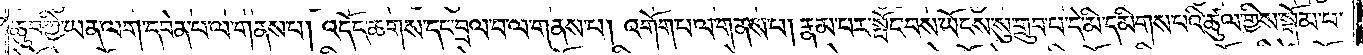ཆུབ་ཀྱི་ཡན་ལག་དབེན་པ་ལ་གནས་པ། འདོད་ཆགས་དང་བྲལ་བ་ལ་གནས་པ། འགོག་པ་ལ་གནས་པ། རྣམ་པར་སྤོང་བས་ཡོངས་སུ་གྲུབ་པ་དེ་མི་དམིགས་པའི་ཚུལ་གྱིས་སྒོམ་པ་
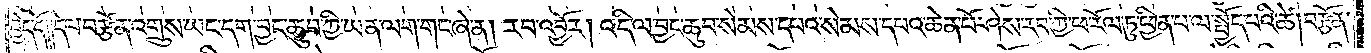བྱེད་དོ། །དེ་ལ་བརྩོན་འགྲུས་ཡང་དག་བྱང་ཆུབ་ཀྱི་ཡན་ལག་གང་ཞེ་ན། རབ་འབྱོར། འདི་ལ་བྱང་ཆུབ་སེམས་དཔའ་སེམས་དཔའ་ཆེན་པོ་ཤེས་རབ་ཀྱི་ཕ་རོལ་ཏུ་ཕྱིན་པ་ལ་སྤྱོད་པའི་ཚེ། བརྩོན་
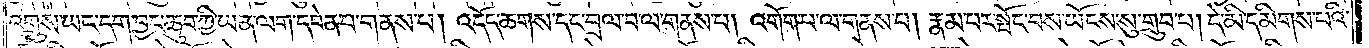འགྲུས་ཡང་དག་བྱང་ཆུབ་ཀྱི་ཡན་ལག་དབེན་པ་ལ་གནས་པ། འདོད་ཆགས་དང་བྲལ་བ་ལ་གནས་པ། འགོག་པ་ལ་གནས་པ། རྣམ་པར་སྤོང་བས་ཡོངས་སུ་གྲུབ་པ། དེ་མི་དམིགས་པའི་
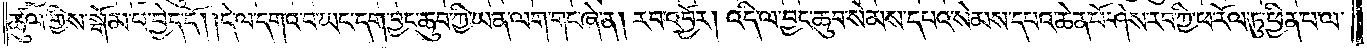ཚུལ་གྱིས་སྒོམ་པ་བྱེད་དོ། །དེ་ལ་དགའ་བ་ཡང་དག་བྱང་ཆུབ་ཀྱི་ཡན་ལག་གང་ཞེ་ན། རབ་འབྱོར། འདི་ལ་བྱང་ཆུབ་སེམས་དཔའ་སེམས་དཔའ་ཆེན་པོ་ཤེས་རབ་ཀྱི་ཕ་རོལ་ཏུ་ཕྱིན་པ་ལ་
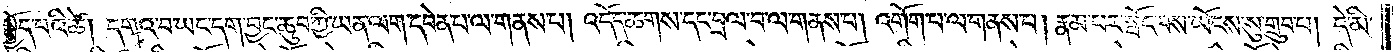སྤྱོད་པའི་ཚེ། དགའ་བ་ཡང་དག་བྱང་ཆུབ་ཀྱི་ཡན་ལག་དབེན་པ་ལ་གནས་པ། འདོད་ཆགས་དང་བྲལ་བ་ལ་གནས་པ། འགོག་པ་ལ་གནས་པ། རྣམ་པར་སྤོང་བས་ཡོངས་སུ་གྲུབ་པ། དེ་མི་
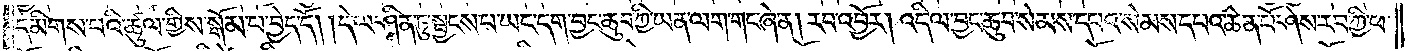དམིགས་པའི་ཚུལ་གྱིས་སྒོམ་པ་བྱེད་དོ། །དེ་ལ་ཤིན་ཏུ་སྦྱངས་པ་ཡང་དག་བྱང་ཆུབ་ཀྱི་ཡན་ལག་གང་ཞེ་ན། རབ་འབྱོར། འདི་ལ་བྱང་ཆུབ་སེམས་དཔའ་སེམས་དཔའ་ཆེན་པོ་ཤེས་རབ་ཀྱི་ཕ་
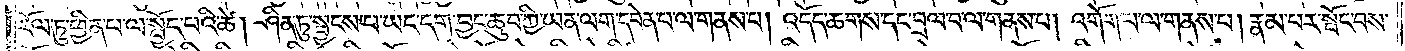རོལ་ཏུ་ཕྱིན་པ་ལ་སྤྱོད་པའི་ཚེ། ཤིན་ཏུ་སྦྱངས་པ་ཡང་དག་བྱང་ཆུབ་ཀྱི་ཡན་ལག་དབེན་པ་ལ་གནས་པ། འདོད་ཆགས་དང་བྲལ་བ་ལ་གནས་པ། འགོག་པ་ལ་གནས་པ། རྣམ་པར་སྤོང་བས་
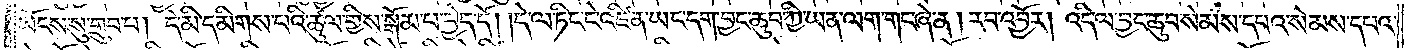ཡོངས་སུ་གྲུབ་པ། དེ་མི་དམིགས་པའི་ཚུལ་གྱིས་སྒོམ་པ་བྱེད་དོ། །དེ་ལ་ཏིང་ངེ་འཛིན་ཡང་དག་བྱང་ཆུབ་ཀྱི་ཡན་ལག་གང་ཞེ་ན། རབ་འབྱོར། འདི་ལ་བྱང་ཆུབ་སེམས་དཔའ་སེམས་དཔའ་
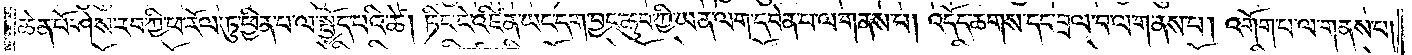ཆེན་པོ་ཤེས་རབ་ཀྱི་ཕ་རོལ་ཏུ་ཕྱིན་པ་ལ་སྤྱོད་པའི་ཚེ། ཏིང་ངེ་འཛིན་ཡང་དག་བྱང་ཆུབ་ཀྱི་ཡན་ལག་དབེན་པ་ལ་གནས་པ། འདོད་ཆགས་དང་བྲལ་བ་ལ་གནས་པ། འགོག་པ་ལ་གནས་པ།
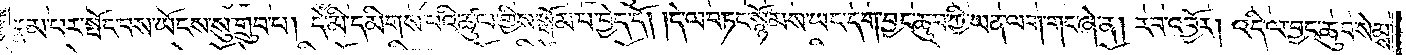རྣམ་པར་སྤོང་བས་ཡོངས་སུ་གྲུབ་པ། དེ་མི་དམིགས་པའི་ཚུལ་གྱིས་སྒོམ་པ་བྱེད་དོ། །དེ་ལ་བཏང་སྙོམས་ཡང་དག་བྱང་ཆུབ་ཀྱི་ཡན་ལག་གང་ཞེ་ན། རབ་འབྱོར། འདི་ལ་བྱང་ཆུབ་སེམས་
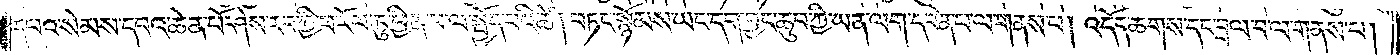དཔའ་སེམས་དཔའ་ཆེན་པོ་ཤེས་རབ་ཀྱི་ཕ་རོལ་ཏུ་ཕྱིན་པ་ལ་སྤྱོད་པའི་ཚེ། བཏང་སྙོམས་ཡང་དག་བྱང་ཆུབ་ཀྱི་ཡན་ལག་དབེན་པ་ལ་གནས་པ། འདོད་ཆགས་དང་བྲལ་བ་ལ་གནས་པ།
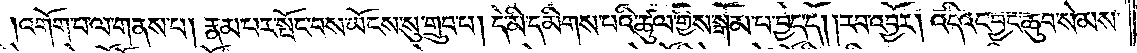འགོག་པ་ལ་གནས་པ། རྣམ་པར་སྤོང་བས་ཡོངས་སུ་གྲུབ་པ། དེ་མི་དམིགས་པའི་ཚུལ་གྱིས་སྒོམ་པ་བྱེད་དོ། །རབ་འབྱོར། འདིའང་བྱང་ཆུབ་སེམས་
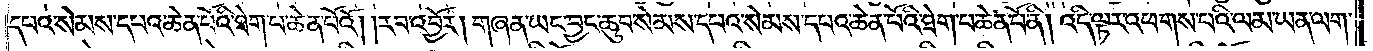དཔའ་སེམས་དཔའ་ཆེན་པོའི་ཐེག་པ་ཆེན་པོའོ། །རབ་འབྱོར། གཞན་ཡང་བྱང་ཆུབ་སེམས་དཔའ་སེམས་དཔའ་ཆེན་པོའི་ཐེག་པ་ཆེན་པོ་ནི། འདི་ལྟར་འཕགས་པའི་ལམ་ཡན་ལག་
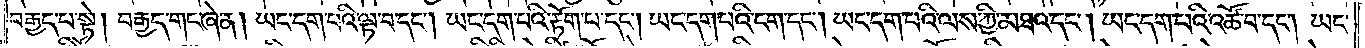བརྒྱད་པ་སྟེ། བརྒྱད་གང་ཞེ་ན། ཡང་དག་པའི་ལྟ་བ་དང༌། ཡང་དག་པའི་རྟོག་པ་དང༌། ཡང་དག་པའི་ངག་དང༌། ཡང་དག་པའི་ལས་ཀྱི་མཐའ་དང༌། ཡང་དག་པའི་འཚོ་བ་དང༌། ཡང་
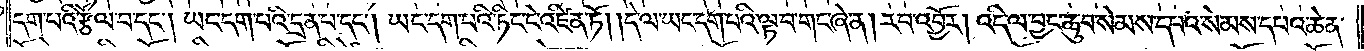དག་པའི་རྩོལ་བ་དང༌། ཡང་དག་པའི་དྲན་པ་དང༌། ཡང་དག་པའི་ཏིང་ངེ་འཛིན་ཏོ། །དེ་ལ་ཡང་དག་པའི་ལྟ་བ་གང་ཞེ་ན། རབ་འབྱོར། འདི་ལ་བྱང་ཆུབ་སེམས་དཔའ་སེམས་དཔའ་ཆེན་
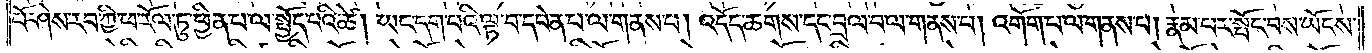པོ་ཤེས་རབ་ཀྱི་ཕ་རོལ་ཏུ་ཕྱིན་པ་ལ་སྤྱོད་པའི་ཚེ། ཡང་དག་པའི་ལྟ་བ་དབེན་པ་ལ་གནས་པ། འདོད་ཆགས་དང་བྲལ་བ་ལ་གནས་པ། འགོག་པ་ལ་གནས་པ། རྣམ་པར་སྤོང་བས་ཡོངས་
